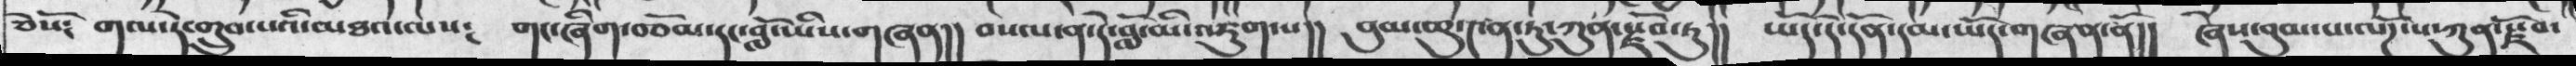ཅེསོ༴ གལ་ཏེ་གྲུབ་པའི་མཐའ་ལས༴ གང་ཞིག་བཅོམ་དང་བློ་ཡིས་གཞན།། བསལ་ན་དེ་བློ་མི་འཇུག་པ།། བུམ་ཆུ་༤ན་ཏུ་ཀུན་སྫོབ་ཏུ།། ཡོད་དེ་དོན་དམ་ཡོད་གཞན་ནོ།། ཞེས་བུམ་པ་ལསོཌ་པ་ཀུན་སྫོབ་
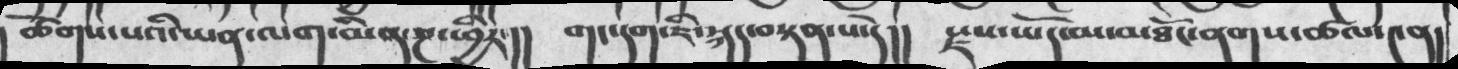ཚོགས་པའི་ཡན་ལག་མིན་ཎ་ཕྱིར་།། གང་དག་ཇི་སྐད་བསྟན་པ་དེ།། སྫས་ཡོད་མ་མཐོང་ནགས་ཚལ་༤ན།
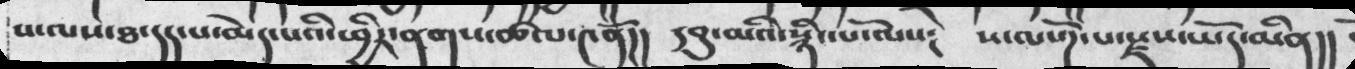པ་ལས་ཐ་དད་པ་མེད་པའི་ཕྱིར་ནགས་ཚལ་༤ནོ།། དབུ་མའི་སྙིང་པོ་ལས༴ ས་ལསོཌ་པ་སྫས་ཡོད་མིན།།
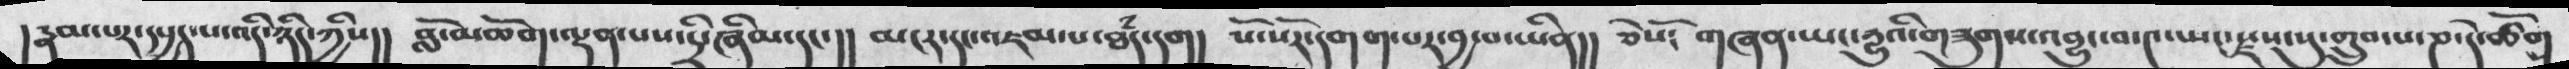།རྣམ་པར་དཔྱད་པ་འདི་ཉིད་ཀྱིས།།   བློ་མཆོག་ལྡན་པས་དྲི་ཞིམ་དང་།།  མངར་དང་འཇམ་པ་ཐཾད་དག།  སོ་སོར་དགག་པར་བྱ་བ་ཡིན།།  ཅེསོ༴   གཞན་ཡང་དྱུའི་གཟུགས་འབྱུང་བ་༤་ཡང་སྫས་སུ་གྲུབ་པ་ཎ་དེ་ཚོག
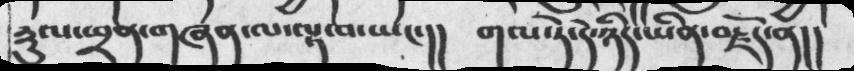རྡུལ་ཕྲན་གཞན་ལ་ལྟ་བ་ཡང་།།  གལ་ཏེ་དེ་ཉིད་ཡིན་བརྗོད་ན།།
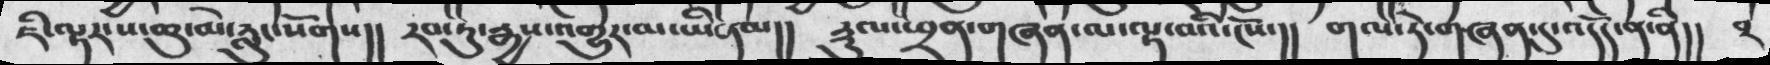ཇི་ལྟར་ས་ཆུ་མེ་རླུང་སོགས།། རབ་ཏུ་རྒྱས་འགྱུར་མ་ཡིནམ།། རྡུལ་ཕྲན་གཞན་ལ་ལྟ་བའི་ངོས་།། གལ་ཏེ་གཞན་དུ་འདོད་ན་ནི།། ༢
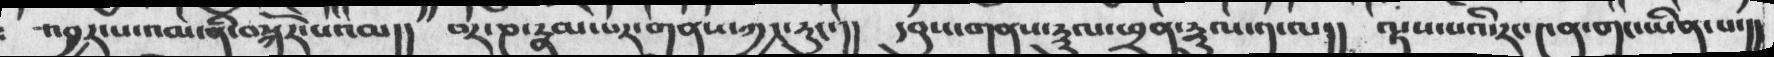འབྱར་པ་འམ་ནི་བསྐོར་པའམ།། བར་ཎ་རྣམ་པར་གནས་ཀྱང་རུང་།། དབུས་གནས་རྡུལ་ཕྲན་རྡུལ་༡་ལ།། ལྟས་པའི་རང་༤ན་གང་ཡིན་པ་།།
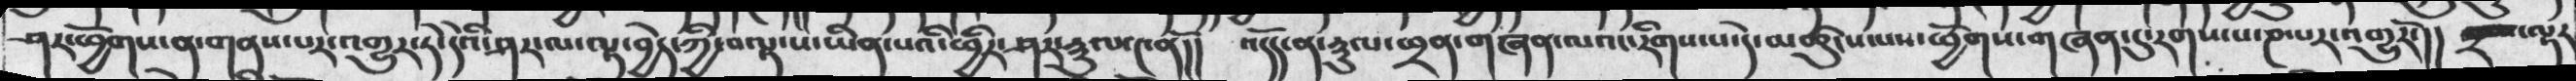ཤར་ཕྱོགས་ན་གནས་པར་འགྱུར་ཏེ་དེའི་ཤར་ལ་ལྟ་བྱེད་ཀྱི་བལྟ་ས་ཡིན་པའི་ཕྱིར་ཤར་རྡུལ་༤ནོ།།  འདོད་ན་རྡུལ་ཕྲན་གཞན་ལའང་རིགས་པ་དེ་མཚུངས་པས་ཕྱོགས་གཞན་དུ་རགས་པ་ཎ་པར་འགྱུརོ་།།   ༢་པ་ལྟར
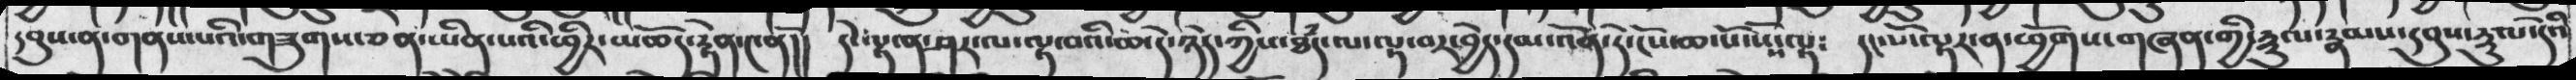དབུས་ན་གནས་པའི་གཟུགས་ཅན་ཡིན་པའི་ཕྱིར་མཆོད་རྟེན་༤ནོ།།  དེ་ལྟ་ན་ཤར་ལ་ལྟ་བའི་ཆ་དེ་ཉིད་ཀྱི་འཐཾད་ལ་ལྟ་བར་བྱེད་དམ་འོན་རེ་ངོས་ཆ་སོ་སོས་ལྟ༴  དང་པོ་ལྟར་ན་ཕྱོགས་གཞན་གྱི་རྡུལ་རྣམས་དབུས་རྡུལ་དེའི་
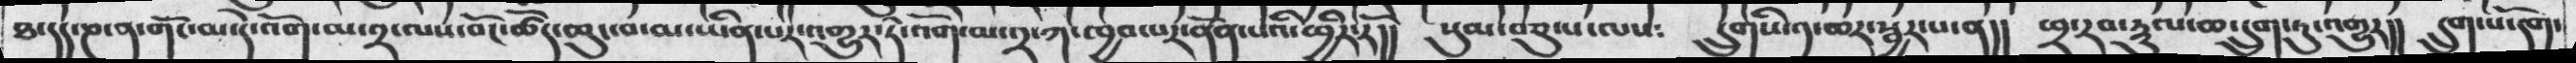ཐ་དད་ཎ་ན་གོང་མ་དེ་འོག་མ་༢་ལས་བོང་ཚོད་ཆུང་བ་མ་ཡིན་པར་འགྱུར་ཏེ་འོག་མ་༢་ཀ་ཁྱབ་པར་ནོན་པའི་ཕྱིར་རོ།། སུམ་བཅུ་པ་ལས༴ དྲུགིས་༡་ཆར་སྦྱར་པ་ན།། ཕྲ་རབ་རྡུལ་ཆ་དྲུག་ཏུ་འགྱུར།། དྲུག་པོ་དག་
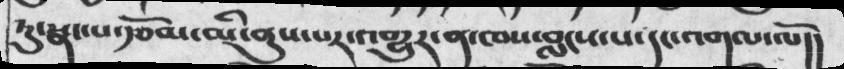ཏུ་སྣང་པ་རྩོམ་མི་ནུས་པར་འགྱུར་ན་ཁས་བླངས་པ་དང་འགལ་ལོ།།
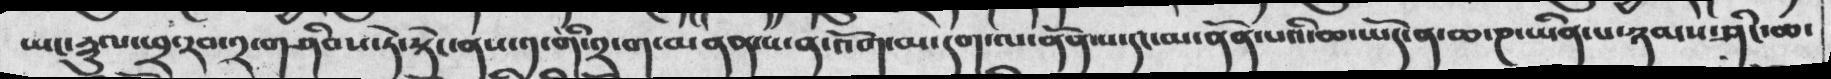ཡང་རྡུལ་ཕྲ་རབ་༢་གཤིབས་ཏེ་སྟེ་ནས་༡་གི་༢་ག་མནན་པ་ན་འོག་མ་དག་ལ་ནོན་པ་དང་མ་ནོན་པའི་ཆ་ཡོད་ན་ཆ་ཎ་ཡིན་པ་ཉམས་ཤིང་ཆ་
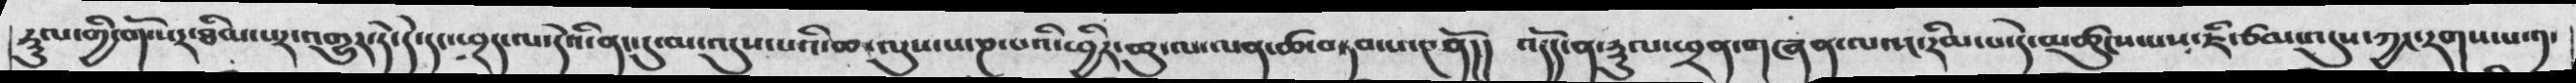རྡུལ་གྱི་གོ་སར་ཐིམ་པར་འགྱུར་ཏེ་དེ་དང་ཕྲད་ལ་དེའི་ནང་དུ་མ་འདུས་པའི་ཆ་ལུས་པ་ཎ་པའི་ཕྱིར་ཆུ་ལ་ལན་ཚ་བཏབ་པ་༤ནོ།། འདོད་ན་རྡུལ་ཕྲན་གཞན་ལའང་རིམ་པ་དེ་མཚུངས་པས་ཇི་ཙམ་འདུས་ཀྱང་རགས་པ་༡་
